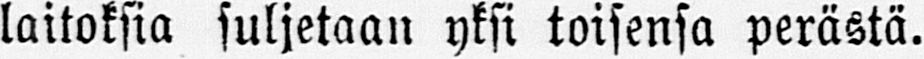laitoksia suljetaan yksi toisensa perästä.
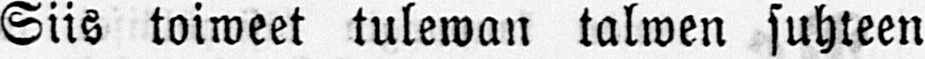Siis toiweet tuleman talwen suhteen
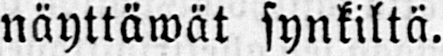näyttäwät synkiltä.
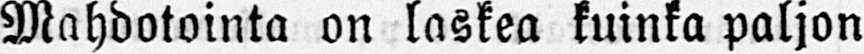Mahdotointa on laskea kuinka paljon
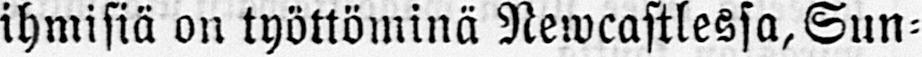ihmisiä on työttöminä Newcastlessa,Sun-
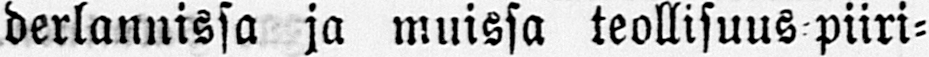derlannissa ja muissa teollisuus-piiri-
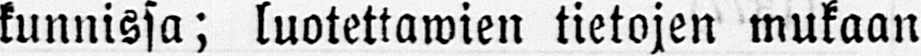kunnissa; luotettawien tietojen mukaan
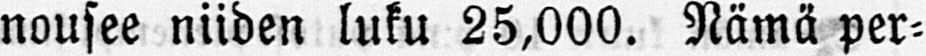nousee niiden luku 25,000. Nämä per-
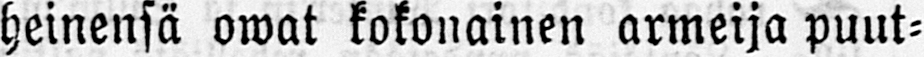heinensä owat kokonainen armeija puut-
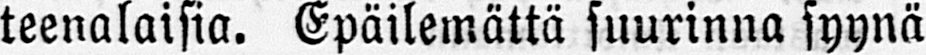teenalaisia. Epäilemättä suurinna syynä
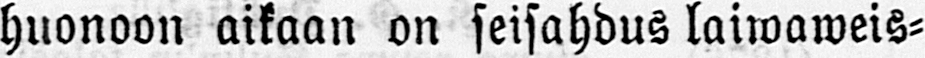huonoon aikaan on seisahdus laiwaweis-
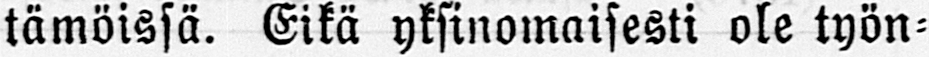tämöissä. Eikä yksinomaisesti ole työn-
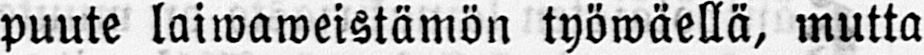puute laiwaweistämön työwäellä, mutta
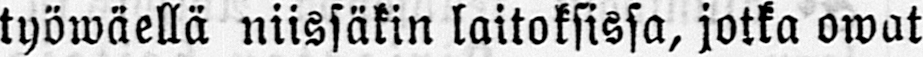työwäellä niissäkin laitoksissa, jotka owat
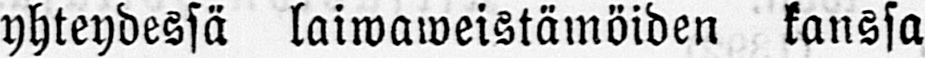yhteydessä laiwaweistämöiden kanssa
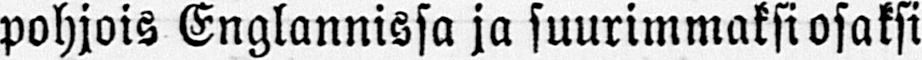pohjois Englannissa ja suurimmaksi osaksi
